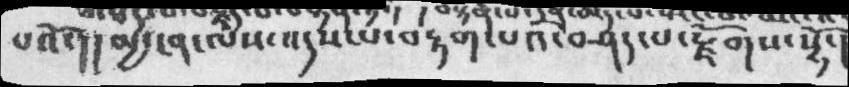པའོ་།། མྱ་ངན་ལས་འདས་པ་བརྟག་པའི་བཤད་པ་རྗོགས་སྟེ་།
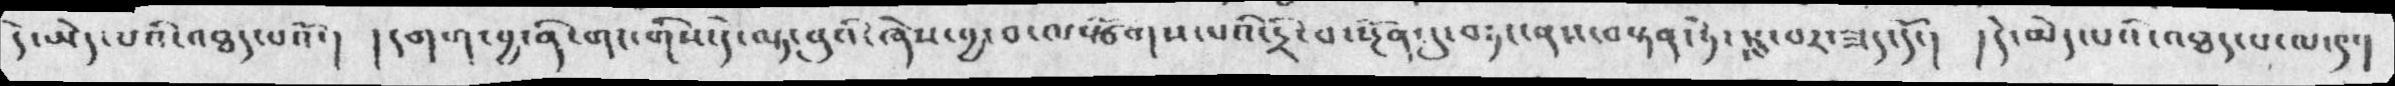དེ་མེད་པའི་འཐད་པའོ་། །དགག་བྱ་ནི་གང་གིས་དེ་ལྟ་བུའི་ཞེས་བྱ་བ་ལསྩོགས་པའི་དྲི་བ་སྔོན་དུ་བཏང་ནས་བསྟན་ཏེ་སླ་བར་ཟད་དོ་། །དེ་མེད་པའི་འཐད་པ་ལ་༩་།
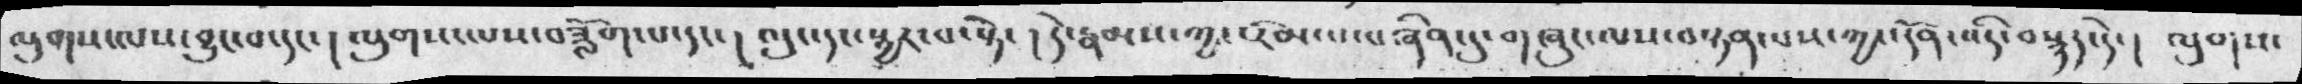ལུགས་ལས་བྱུང་བ་དང་། ལུགས་ལས་བཟློག་པ་དང་། ལུང་དང་སྦྱར་པ་སྟེ་། དེ་རྣམས་ཀྱང་རིམ་པ་བཞིན་དུ་གཞུང་ལས་བསྟན་པས་ཀྱང་དོན་འདི་བསྙད་དེ་། ལུགས་
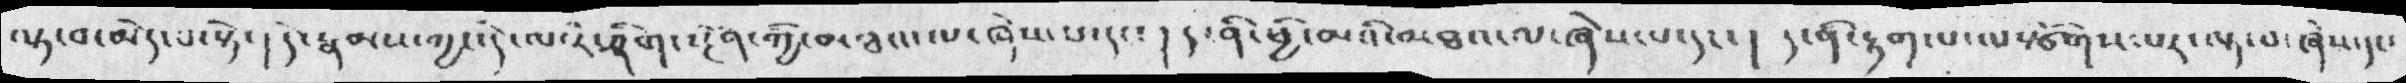ལྟ་བ་མེད་པ་སྟེ་། དེ་རྣམས་ཀྱང་དེ་ལ་རེ་ཤིག་སྔོན་ཀྱི་མཐའ་ལ་ཞེས་པ་དང་། ད་ནི་ཕྱི་མའི་མཐའ་ལ་ཞེས་པ་དང་། ད་ནི་རྟག་པ་ལསྩོགས་པར་ལྟ་བ་ཞེས་དང་
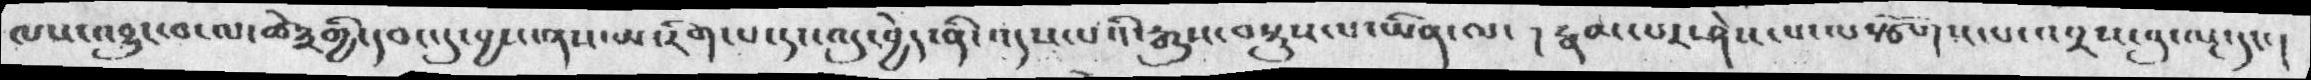ལས་འབྱུང་བ་ལ་ཚེ༣གྱི་དབང་དུ་བྱས་ནས་མ་རིག་པ་དང་འདུ་བྱེད་ནི་འདས་པའི་རྒྱུས་བསྡུས་པ་ཡིན་ལ་། རྣམ་པར་ཤེས་པ་ལསྩོགས་པ་འབྲས་བུ་ལྔ་དང་།
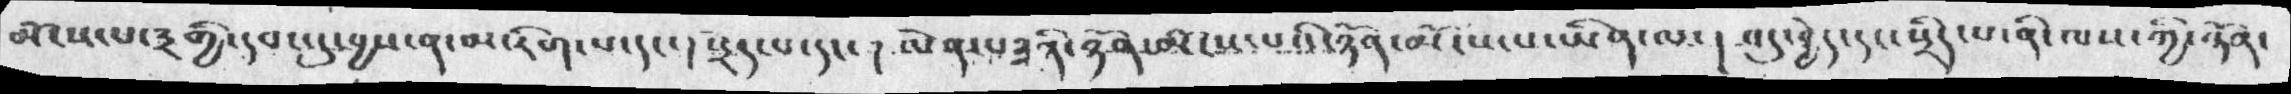མོངས་པ་༣གྱི་དབང་དུ་བྱས་ན་མ་རིག་པ་དང་། སྲེད་པ་དང་། ལེན་པ༣ནི་ཉོན་མོངས་པའི་ཉོན་མོངས་པ་ཡིན་ལ་།  འདུ་བྱེད་དང་སྲེད་པ་ནི་ལས་ཀྱི་ཉོན་
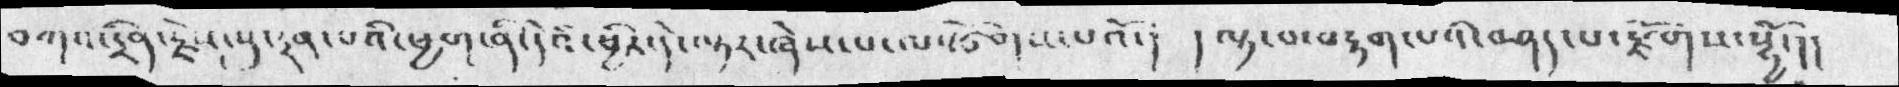བཀའ་དྲིན་རྗེས་སུ་དྲན་པའི་ཕྱག་ནི་དེའི་ཕྱིར་དེ་ལྟར་ཞེས་པ་ལསྩོགས་པའོ་།  །ལྟ་བ་བརྟག་པའི་བཤད་པ་རྫོགས་སྷྱོ་།།
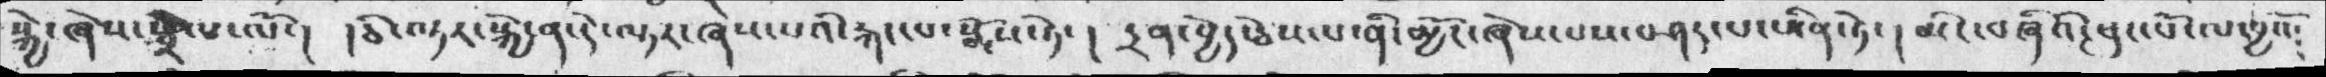སྐྱེ་ཞེས་སྦྲེལ་ལོ་།  །ཅི་ལྟར་སྐྱེ་ན་དེ་ལྟར་ཞེས་པའི་རྐང་པ་སྨོས་ཏེ་།  དྲན་བྱེད་ཅེས་པ་ནི་མྱོང་ཞེས་པས་བཤད་པ་ཡིན་ཏེ་། མིང་བཞིའི་ཕུང་པོ་ལ་བྱའོ༴
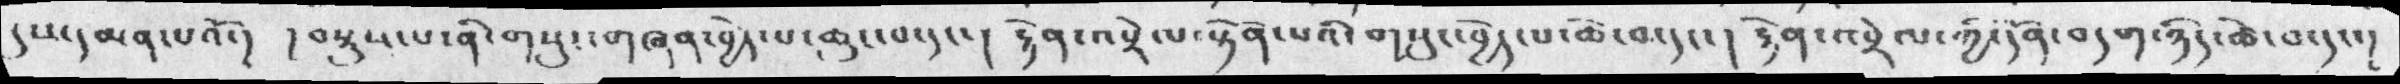དུས་དམན་པའོ་།  །བསྡུས་པ་ནི་གསུང་གཞན་བྱེད་པ་ཆུང་བ་དང་།  རྟེན་འབྲེལ་སྟོན་པའི་གསུང་བྱེད་པ་ཆེ་བ་དང་། རྟེན་འབྲེལ་ཀྱི་དོན་བདག་ཉིད་ཆེ་བ་དང་།
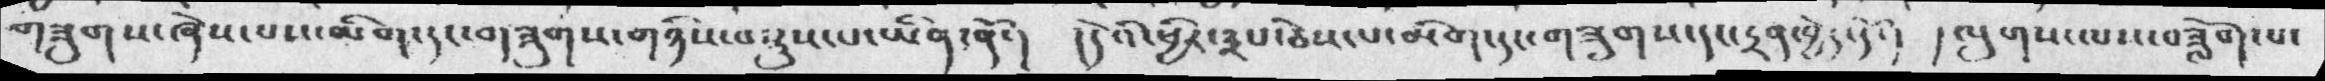གཟུགས་ཞེས་པས་མིག་དང་གཟུགས་གཉིས་བསྡུས་པ་ཡིན་ནོ་།  །དེའི་ཕྱིར་༣པ་ཅེས་པ་མིག་དང་གཟུགས་དང་དྲན་བྱེད་དོ་། །ལུགས་ལས་བཟློག་པ་
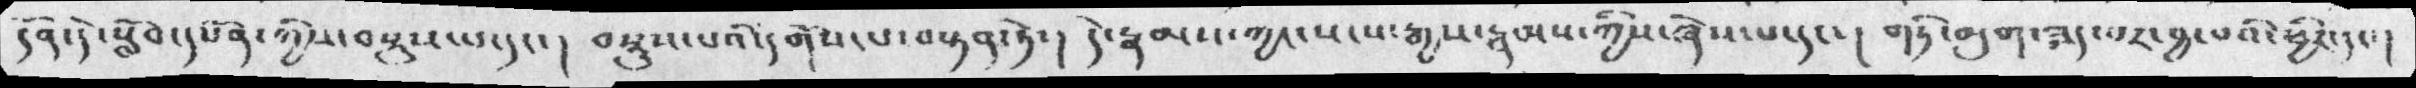དོན་དེ་སློབ་དཔོན་ཀྱིས་བསྡུས་པ་དང་།  བསྡུས་པའི་དགོས་པ་བསྟན་ཏེ་།  དེ་རྣམས་ཀྱང་སངས་རྒྱས་རྣམས་ཀྱིས་ཞེས་པ་དང་།  གཏི་མུག་ཟད་པར་བྱ་བའི་ཕྱིར་དང་།
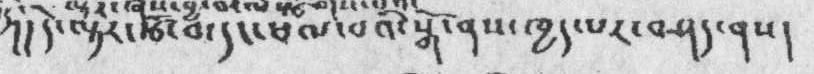རྟེ།   དེ་ལྟར་རྩ་བ་དང་ཕལ་བའི་སྒོ་ནས་ཁྱད་པར་བཤད་ནས་།
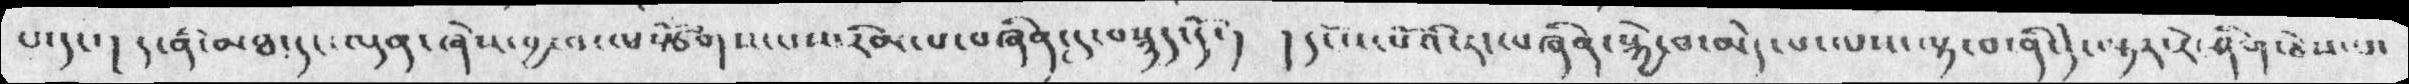པ་དང་། ད་ནི་མཐ་དང་ལྡན་ཞེས་བྱ་བ་ལསྩོགས་པས་རིམ་པ་བཞིན་དུ་བསྙད་དོ་། །དངོས་པོའི་རང་བཞིན་སྐྱེ་བ་མེད་པ་ལས་ལྟ་བ་ནི་དེ་ལྟར་རེ་ཤིག་ཅེས་པ་
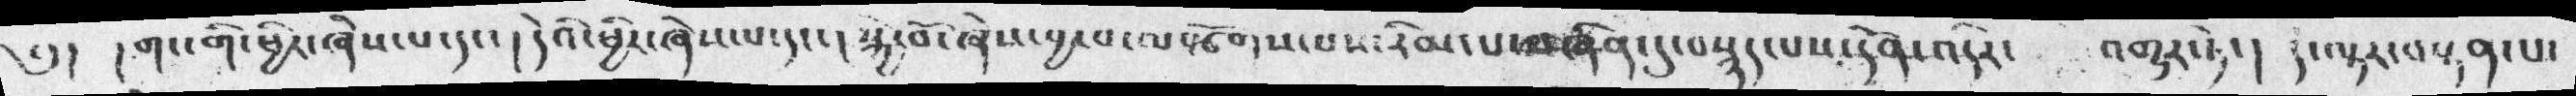༅།  །གང་གི་ཕྱིར་ཞེས་པ་དང་། །དེའི་པྱིར་ཞེས་པ་དང་། སྐྱེ་བ་ཞེས་བྱ་བ་ལསྩོགས་པས་རིམ་པ་བཞིན་དུ་བསྙད་པས་དོན་འདིར་  འགྱུར་ཏེ་། ད་ལྟར་བསྟན་པ་
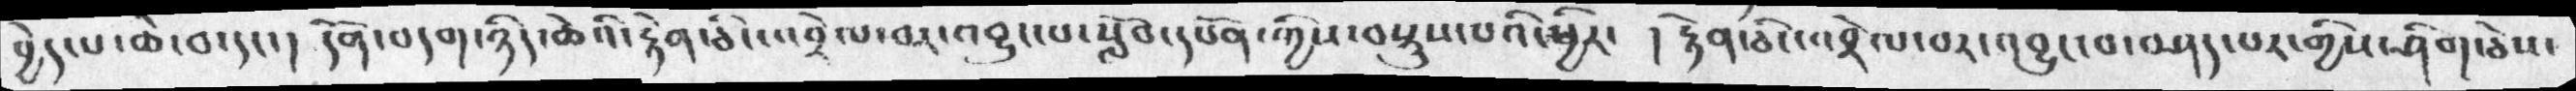བྱེད་པ་ཆེ་བ་དང་། དོན་བདག་ཉིད་ཆེའི་རྟེན་ཅིང་འབྲེལ་བར་འབྱུང་པ་སློབ་དཔོན་ཀྱིས་བསྡུས་པའི་ཕྱིར་ ། རྟེན་ཅིང་འབྲེལ་བར་འབྱུང་བ་བཤད་པར་གྱིས་ཤིག་ཅེས་
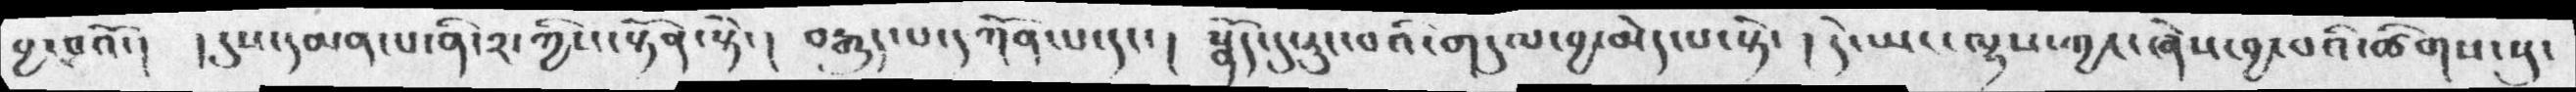བྱ་བའོ་། །དུས་དམན་པ་ནི་༢་ཀྱིས་སྟོན་སྟེ་། བརྒྱུད་པ་དཀོན་པ་དང་། སྣོད་དུ་རུང་བའི་གདུལ་བྱ་མེད་པ་སྟེ་། དེ་ཡང་ལྷས་ཀྱང་ཞེས་བྱ་བའི་ཚིགས་སུ་
